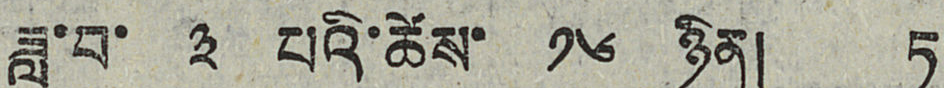ཟླ་བ་ ༣ པའི་ཚེས་ ༡༦ ཉིན། ཏ་
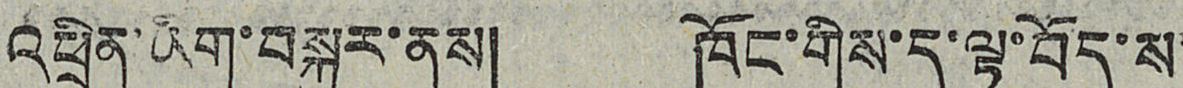འཕྲིན་ཡིག་བསྐུར་ནས། ཁོང་གིས་ད་ལྟ་བོད་ས་
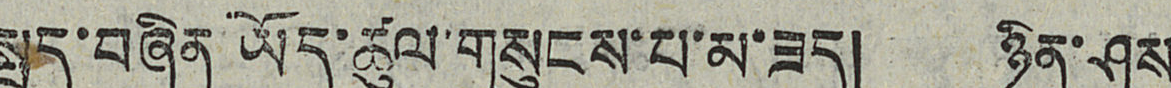སྤྲད་བཞིན ཡོད་ཚུ་གསུངས་པ་མ་ཟད། ཉིན་ཤས
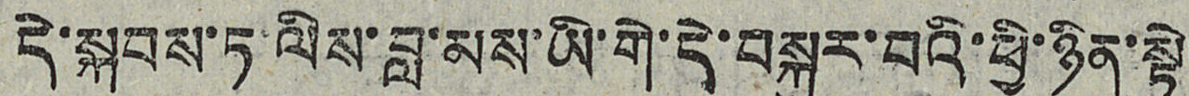དེ་སྐབས་ཏ་ལིས་བླ་མས་ཡི་གེ་བསྐུར་བའི་ཕྱི་ཉིན་སྟེ།
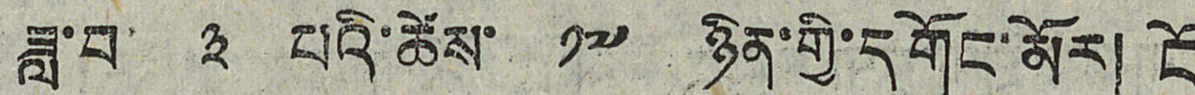ཟླ་བ་ ༣ པའི་ཚེས་ ༡༧ ཉིན་གྱི་དགོང་མོར། ངོ
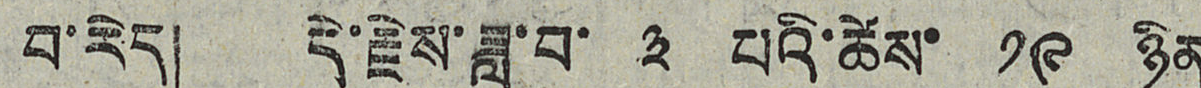བ་རེད། དེ་རྗེས་ཟླ་བ་ ༣ པའི་ཚེས་ ༡༩ ཉིན
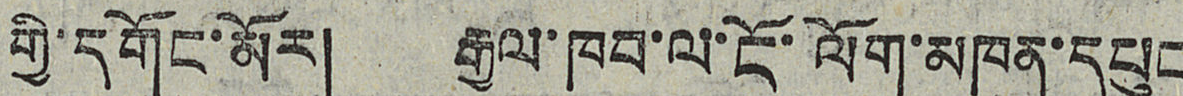གྱི་དགོང་མོར། རྒྱལ་ཁབ་ལ་ངོ་ལོག་མཁན་དཔུང
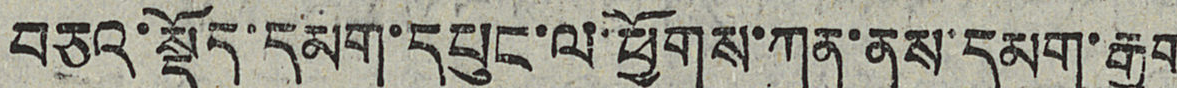བཅའ་སྡོད་དམག་དཔུང་ལ་ཕྱོགས་ཀུན་ནས་དམག་རྒྱག
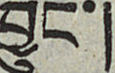བྱུང་།
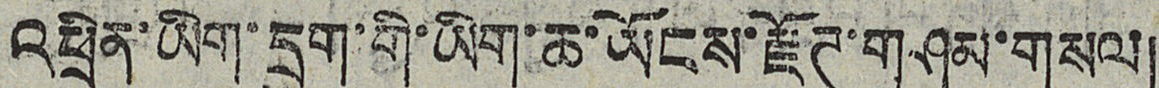འཕྲིན་ཡིག་དྲུག་གི་ཡིག་ཆ་ཡོངས་རྫོཊ་གཤམ་གསལ།
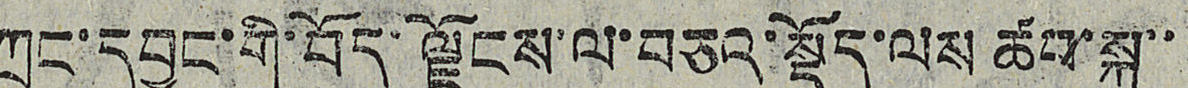ཀྲུང་དབྱང་གི་བོད་ལྗོངས་ལ་བཅའ་སྡོད་ལས ཚབ་སྐུ་་
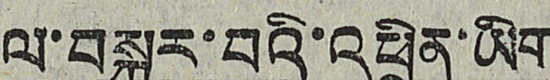ལ་བསྐུར་བའི་འཕྲིན་ཡིག
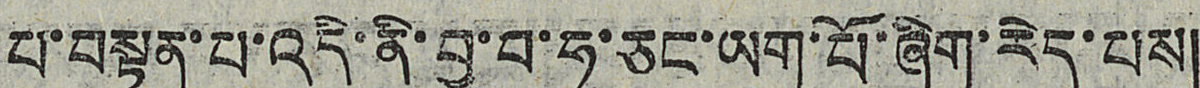པ་བསྟན་པ་འདི་ནི་བྱ་བ་ཧ་ཅང་ཡག་པོ་ཞིག་རེད་པས།
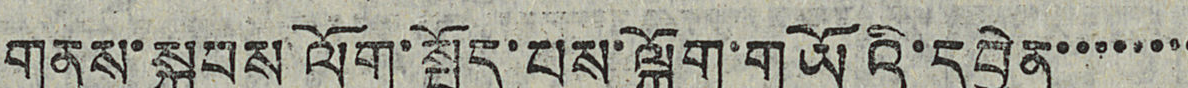གནས་སྐབས ལོག་སྤྱོད་པས་ལྐོག་གཡོའི་དབྱེན་་་་་་་་
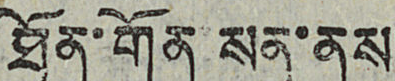ཐོན་གོན སན་ནས།
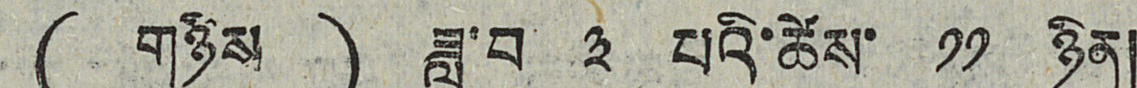( གཉིས ) ཟླ་བ་ ༣ པའི་ཚེས་ ༡༡ ཉིན།
